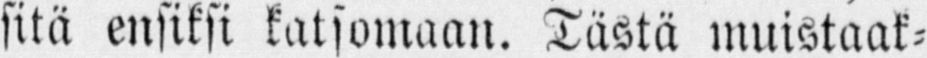sitä ensiksi katsomaan. Tästä muistaak-
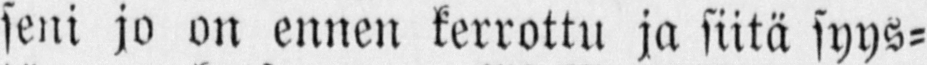seni jo on ennen kerrottu ja siitä syys-
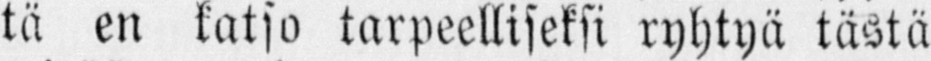tä en katso tarpeelliseksi ryhtyä tästä
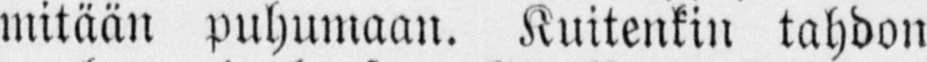mitään puhumaan. Kuitenkin tahdoit
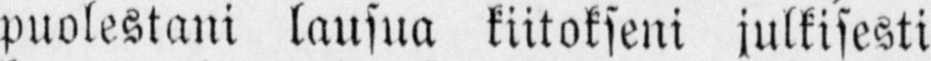puolestani lausua kiitokseni julkisesti
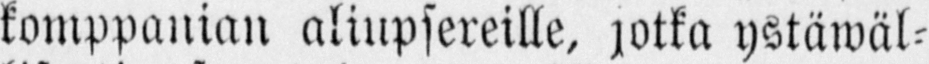komppanian aliupsereille, jotka ystäwäl-
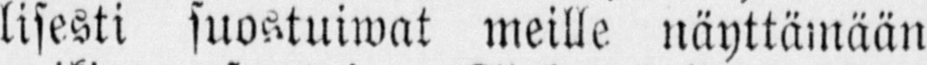lisesti suostuiwat meille näyttämään
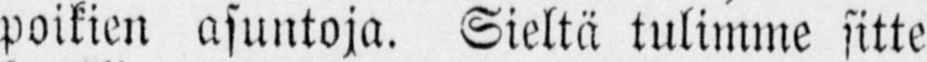poikien asuntoja. Sieltä tulimme sitte
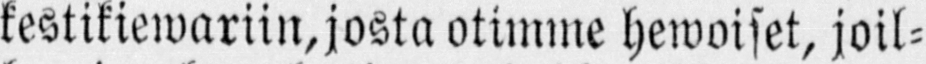kestikiewariin, josta otimme hewoiset, joil-
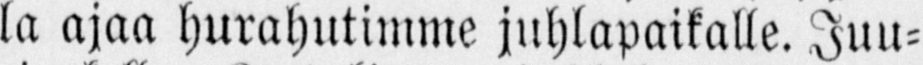la ajaa hurahutimme juhlapaikalle. Juu-
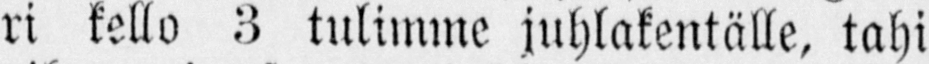ri kello 3 tulimme juhlakentälle, tahi
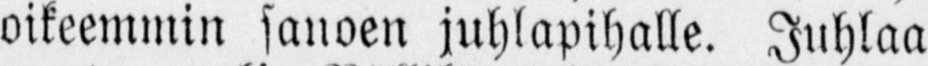oikeemmiin sanoen juhlapihalle. Juhlaa
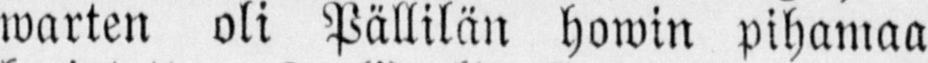warten oli Pällilän howin pihamaa
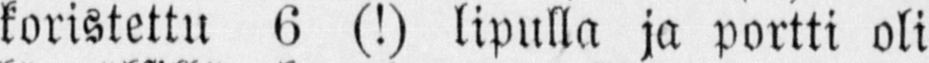koristettu 6 (!) lipulla ja portti oli
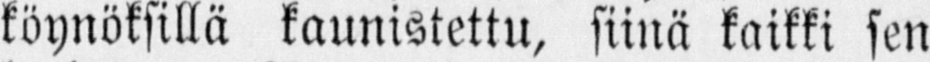köynöksillä kaunistettu, siinä kaikki sen
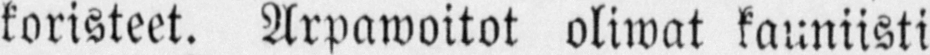koristeet. Arpawoitot oliwat kauniisti
